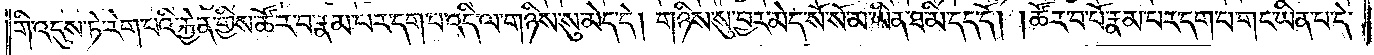གི་འདུས་ཏེ་རེག་པའི་རྐྱེན་གྱིས་ཚོར་བ་རྣམ་པར་དག་པ་འདི་ལ་གཉིས་སུ་མེད་དེ། གཉིས་སུ་བྱར་མེད་སོ་སོ་མ་ཡིན་ཐ་མི་དད་དོ། །ཚོར་བ་པོ་རྣམ་པར་དག་པ་གང་ཡིན་པ་དེ་
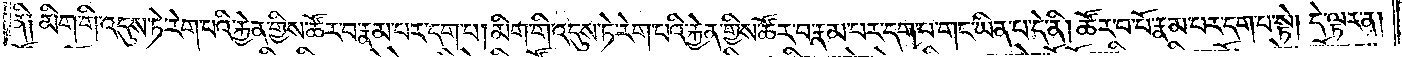ནི། མིག་གི་འདུས་ཏེ་རེག་པའི་རྐྱེན་གྱིས་ཚོར་བ་རྣམ་པར་དག་པ། མིག་གི་འདུས་ཏེ་རེག་པའི་རྐྱེན་གྱིས་ཚོར་བ་རྣམ་པར་དག་པ་གང་ཡིན་པ་དེ་ནི། ཚོར་བ་པོ་རྣམ་པར་དག་པ་སྟེ། དེ་ལྟར་ན།
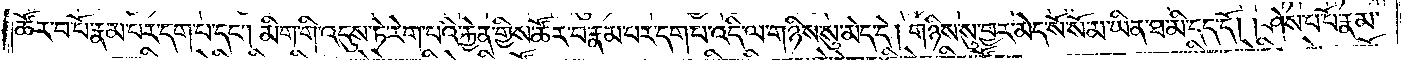ཚོར་བ་པོ་རྣམ་པར་དག་པ་དང༌། མིག་གི་འདུས་ཏེ་རེག་པའི་རྐྱེན་གྱིས་ཚོར་བ་རྣམ་པར་དག་པ་འདི་ལ་གཉིས་སུ་མེད་དེ། གཉིས་སུ་བྱར་མེད་སོ་སོ་མ་ཡིན་ཐ་མི་དད་དོ། །ཤེས་པ་པོ་རྣམ་
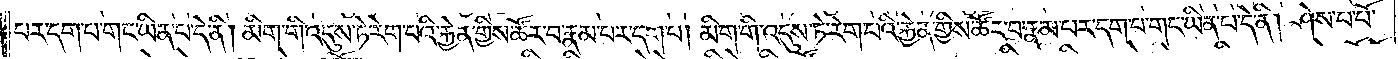པར་དག་པ་གང་ཡིན་པ་དེ་ནི། མིག་གི་འདུས་ཏེ་རེག་པའི་རྐྱེན་གྱིས་ཚོར་བ་རྣམ་པར་དག་པ། མིག་གི་འདུས་ཏེ་རེག་པའི་རྐྱེན་གྱིས་ཚོར་བ་རྣམ་པར་དག་པ་གང་ཡིན་པ་དེ་ནི། ཤེས་པ་པོ་
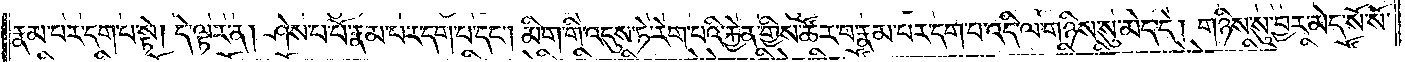རྣམ་པར་དག་པ་སྟེ། དེ་ལྟར་ན། ཤེས་པ་པོ་རྣམ་པར་དག་པ་དང༌། མིག་གི་འདུས་ཏེ་རེག་པའི་རྐྱེན་གྱིས་ཚོར་བ་རྣམ་པར་དག་པ་འདི་ལ་གཉིས་སུ་མེད་དེ། གཉིས་སུ་བྱར་མེད་སོ་སོ་
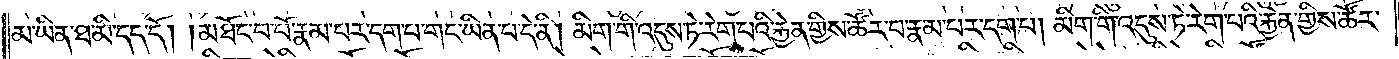མ་ཡིན་ཐ་མི་དད་དོ། །མཐོང་བ་པོ་རྣམ་པར་དག་པ་གང་ཡིན་པ་དེ་ནི། མིག་གི་འདུས་ཏེ་རེག་པའི་རྐྱེན་གྱིས་ཚོར་བ་རྣམ་པར་དག་པ། མིག་གི་འདུས་ཏེ་རེག་པའི་རྐྱེན་གྱིས་ཚོར་
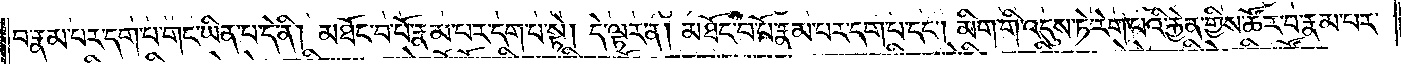བ་རྣམ་པར་དག་པ་གང་ཡིན་པ་དེ་ནི། མཐོང་བ་པོ་རྣམ་པར་དག་པ་སྟེ། དེ་ལྟར་ན། མཐོང་བ་པོ་རྣམ་པར་དག་པ་དང༌། མིག་གི་འདུས་ཏེ་རེག་པའི་རྐྱེན་གྱིས་ཚོར་བ་རྣམ་པར་
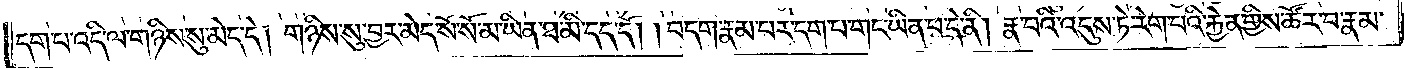དག་པ་འདི་ལ་གཉིས་སུ་མེད་དེ། གཉིས་སུ་བྱར་མེད་སོ་སོ་མ་ཡིན་ཐ་མི་དད་དོ། །བདག་རྣམ་པར་དག་པ་གང་ཡིན་པ་དེ་ནི། རྣ་བའི་འདུས་ཏེ་རེག་པའི་རྐྱེན་གྱིས་ཚོར་བ་རྣམ་
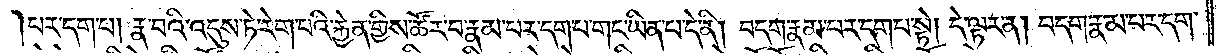པར་དག་པ། རྣ་བའི་འདུས་ཏེ་རེག་པའི་རྐྱེན་གྱིས་ཚོར་བ་རྣམ་པར་དག་པ་གང་ཡིན་པ་དེ་ནི། བདག་རྣམ་པར་དག་པ་སྟེ། དེ་ལྟར་ན། བདག་རྣམ་པར་དག་
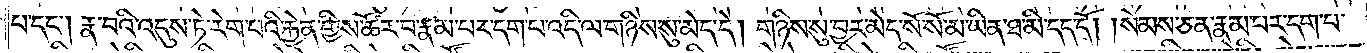པ་དང༌། རྣ་བའི་འདུས་ཏེ་རེག་པའི་རྐྱེན་གྱིས་ཚོར་བ་རྣམ་པར་དག་པ་འདི་ལ་གཉིས་སུ་མེད་དེ། གཉིས་སུ་བྱར་མེད་སོ་སོ་མ་ཡིན་ཐ་མི་དད་དོ། །སེམས་ཅན་རྣམ་པར་དག་པ་
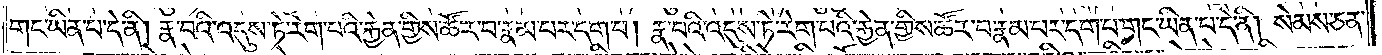གང་ཡིན་པ་དེ་ནི། རྣ་བའི་འདུས་ཏེ་རེག་པའི་རྐྱེན་གྱིས་ཚོར་བ་རྣམ་པར་དག་པ། རྣ་བའི་འདུས་ཏེ་རེག་པའི་རྐྱེན་གྱིས་ཚོར་བ་རྣམ་པར་དག་པ་གང་ཡིན་པ་དེ་ནི། སེམས་ཅན་
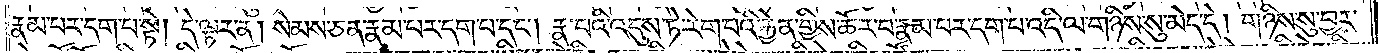རྣམ་པར་དག་པ་སྟེ། དེ་ལྟར་ན། སེམས་ཅན་རྣམ་པར་དག་པ་དང༌། རྣ་བའི་འདུས་ཏེ་རེག་པའི་རྐྱེན་གྱིས་ཚོར་བ་རྣམ་པར་དག་པ་འདི་ལ་གཉིས་སུ་མེད་དེ། གཉིས་སུ་བྱར་
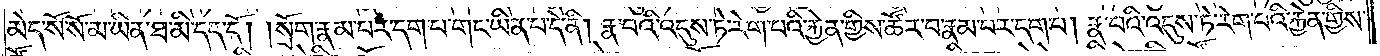མེད་སོ་སོ་མ་ཡིན་ཐ་མི་དད་དོ། །སྲོག་རྣམ་པར་དག་པ་གང་ཡིན་པ་དེ་ནི། རྣ་བའི་འདུས་ཏེ་རེག་པའི་རྐྱེན་གྱིས་ཚོར་བ་རྣམ་པར་དག་པ། རྣ་བའི་འདུས་ཏེ་རེག་པའི་རྐྱེན་གྱིས་
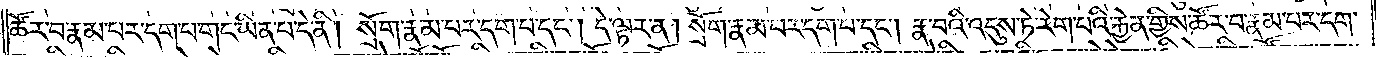ཚོར་བ་རྣམ་པར་དག་པ་གང་ཡིན་པ་དེ་ནི། སྲོག་རྣམ་པར་དག་པ་དང༌། དེ་ལྟར་ན། སྲོག་རྣམ་པར་དག་པ་དང༌། རྣ་བའི་འདུས་ཏེ་རེག་པའི་རྐྱེན་གྱིས་ཚོར་བ་རྣམ་པར་དག་
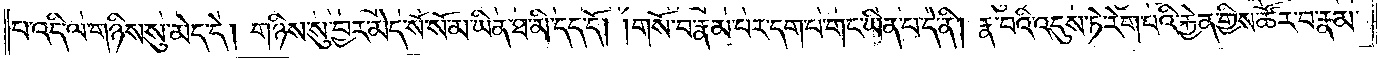པ་འདི་ལ་གཉིས་སུ་མེད་དེ། གཉིས་སུ་བྱར་མེད་སོ་སོ་མ་ཡིན་ཐ་མི་དད་དོ། །གསོ་བ་རྣམ་པར་དག་པ་གང་ཡིན་པ་དེ་ནི། རྣ་བའི་འདུས་ཏེ་རེག་པའི་རྐྱེན་གྱིས་ཚོར་བ་རྣམ་
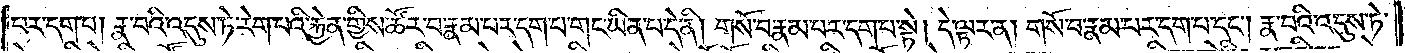པར་དག་པ། རྣ་བའི་འདུས་ཏེ་རེག་པའི་རྐྱེན་གྱིས་ཚོར་བ་རྣམ་པར་དག་པ་གང་ཡིན་པ་དེ་ནི། གསོ་བ་རྣམ་པར་དག་པ་སྟེ། དེ་ལྟར་ན། གསོ་བ་རྣམ་པར་དག་པ་དང༌། རྣ་བའི་འདུས་ཏེ་
